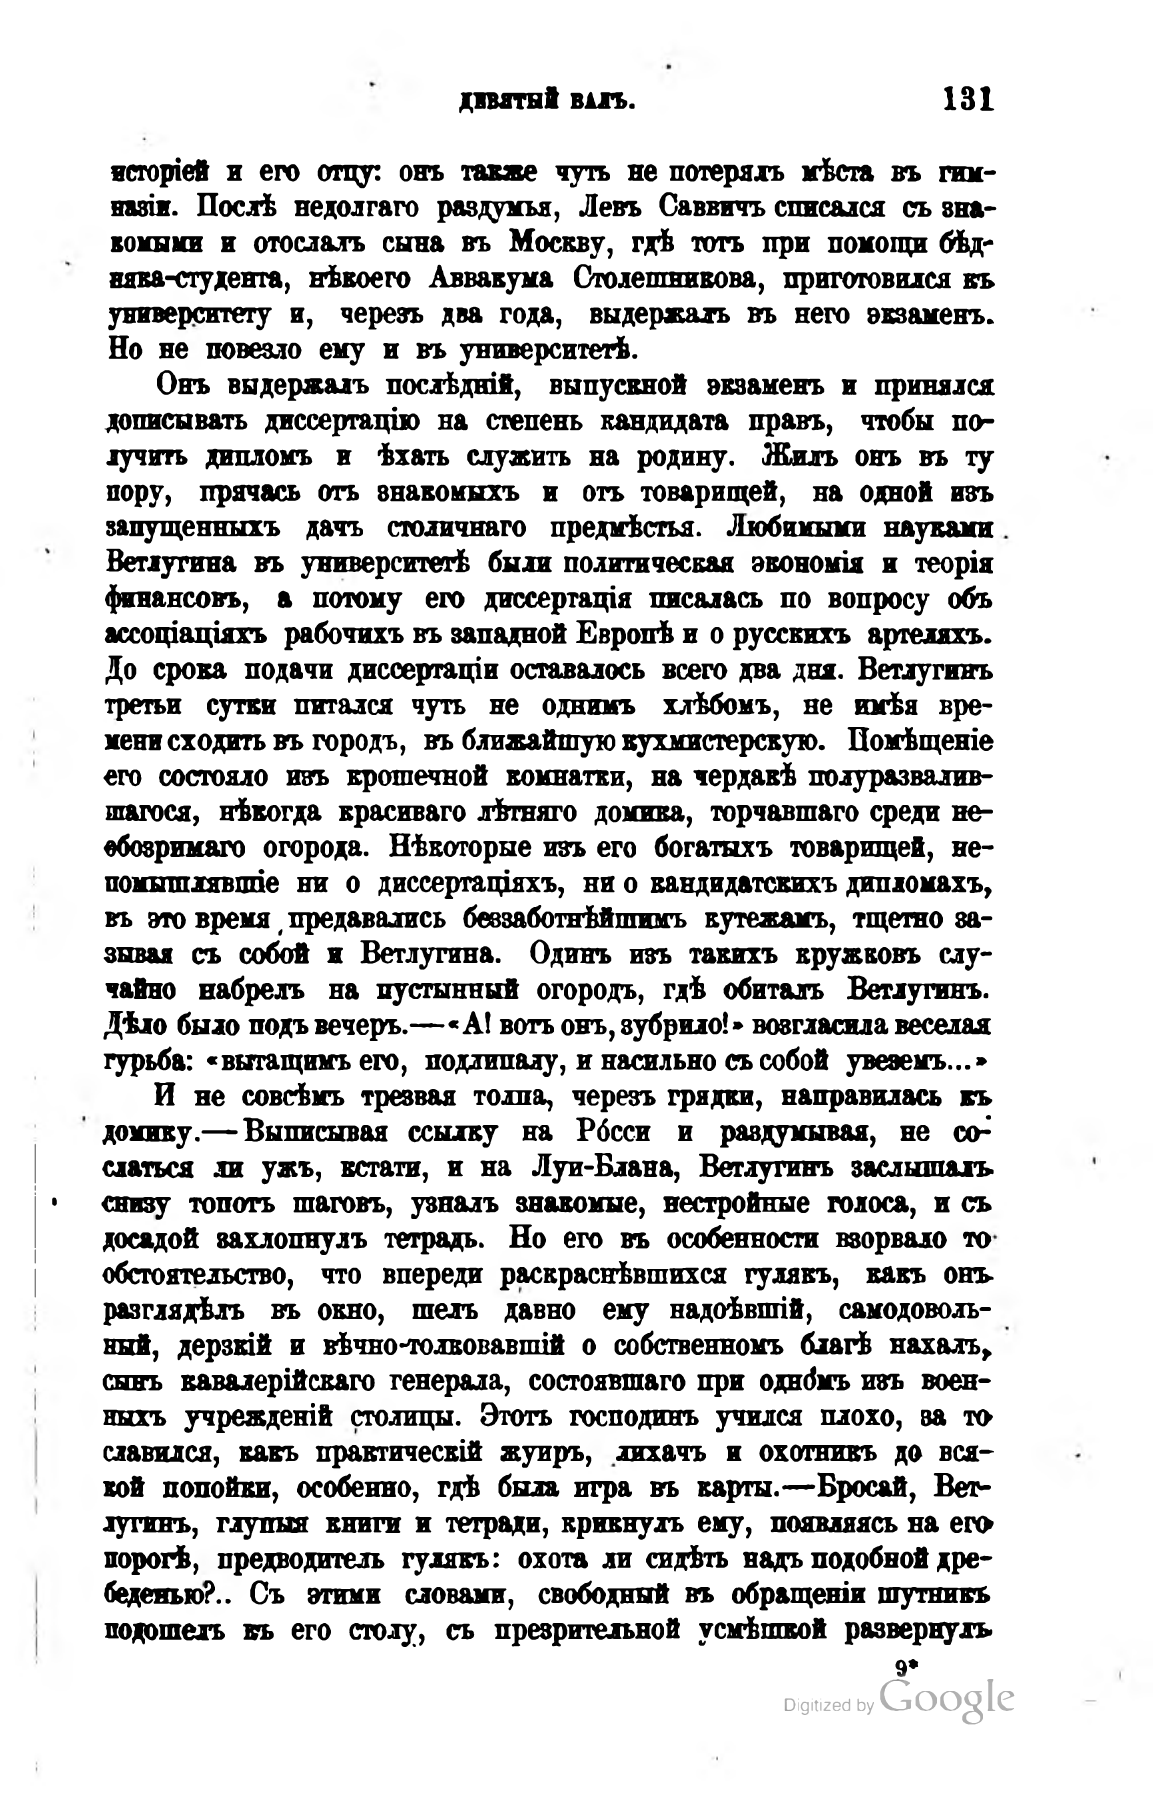ДЕВЯТЫЙ ВАЛЪ.                          131
исторіей и его отцу: онъ также чуть не потерялъ мѣста въ гимназіи. Послѣ недолгаго раздумья, Левъ Саввичъ списался съ знакомыми и отослалъ сына въ Москву, гдѣ тотъ при помощи бѣдняка-студента, нѣкоего Аввакума Столешникова, приготовился къ университету и, черезъ два года, выдержалъ въ него экзаменъ. Но не повезло ему и въ университетѣ.
Онъ выдержалъ послѣдній, выпускной экзаменъ и принялся дописывать диссертацію па степень кандидата правъ, чтобы получить дипломъ и ѣхать служить на родину. Жилъ онъ въ ту пору, прячась отъ знакомыхъ и отъ товарищей, на одной изъ запущенныхъ дачъ столичнаго предмѣстья. Любимыми науками Ветлугина въ университетѣ были политическая экономія и теорія финансовъ, а потому его диссертація писалась по вопросу объ ассоціаціяхъ рабочихъ въ западной Европѣ и о русскихъ артеляхъ. До срока подачи диссертаціи оставалось всего два дня. Ветлугинъ третьи сутки питался чуть не однимъ хлѣбомъ, не имѣя времени сходить въ городъ, въ ближайшую кухмистерскую. Помѣщеніе его состояло изъ крошечной комнатки, на чердакѣ полуразвалившагося, нѣкогда красиваго лѣтняго домика, торчавшаго среди необозримаго огорода. Нѣкоторые изъ его богатыхъ товарищей, непомышлявшіе ни о диссертаціяхъ, ни о кандидатскихъ дипломахъ, въ это время предавались беззаботнѣйшимъ кутежамъ, тщетно зазывая съ собой и Ветлугина. Одинъ изъ такихъ кружковъ случайно набрелъ на пустынный огородъ, гдѣ обиталъ Ветлугинъ. Дѣло было подъ вечеръ. — «А! вотъ онъ, зубрило!» возгласила веселая гурьба: «вытащимъ его, подлипалу, и насильно съ собой увеземъ...»
И не совсѣмъ трезвая толпа, черезъ грядки, направилась къ домику. — Выписывая ссылку на Росси и раздумывая, не сослаться ли ужъ, кстати, и на Луи-Блана, Ветлугинъ заслышалъ снизу топотъ шаговъ, узналъ знакомые, нестройные голоса, и съ досадой захлопнулъ тетрадь. Но его въ особенности взорвало то обстоятельство, что впереди раскраснѣвшихся гулякъ, какъ онъ разглядѣлъ въ окно, шелъ давно ему надоѣвшій, самодовольный, дерзкій и вѣчно-толковавшій о собственномъ благѣ нахалъ, сынъ кавалерійскаго генерала, состоявшаго при одномъ изъ военныхъ учрежденій столицы. Этотъ господинъ учился плохо, за то славился, какъ практическій жуиръ, лихачъ и охотникъ до всякой попойки, особенно, гдѣ была игра въ карты. — Бросай, Ветлугинъ, глупыя книги и тетради, крикнулъ ему, появляясь на его порогѣ, предводитель гулякъ: охота ли сидѣть надъ подобной дребеденью?.. Съ этими словами, свободный въ обращеніи шутникъ подошелъ къ его столу, съ презрительной усмѣшкой развернулъ
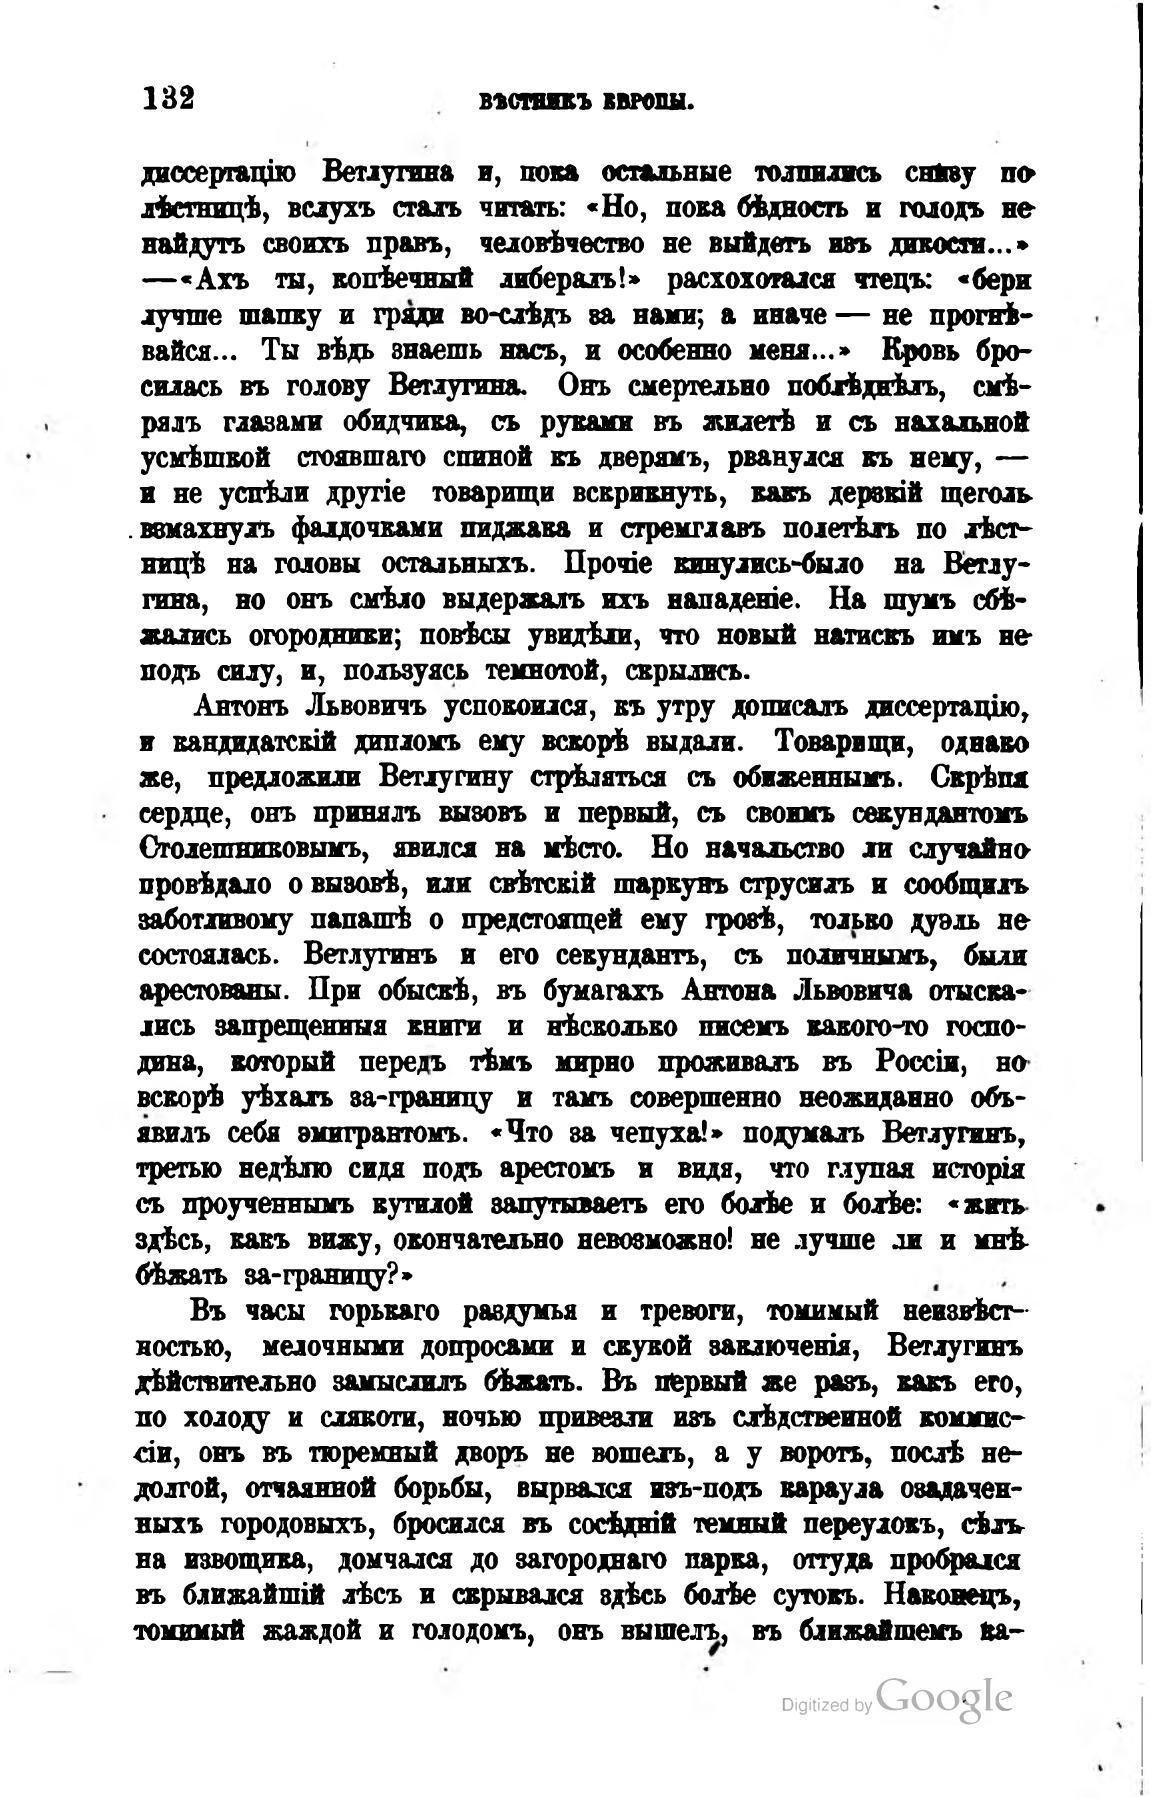132                     ВѢСТНИКЪ ЕВРОПЫ.
диссертацію Ветлугина и, пока остальные толпились снизу по лѣстницѣ, вслухъ сталъ читать: «Но, пока бѣдность и голодъ не найдутъ своихъ правъ, человѣчество не выйдетъ изъ дикости…» — «Ахъ ты, копѣечный либералъ!» расхохотался чтецъ: «бери лучше шапку и гряди во-слѣдъ за нами; а иначе — не прогнѣвайся... Ты вѣдь знаешь насъ, и особенно меня...» Кровь бросилась въ голову Ветлугина. Онъ смертельно поблѣднѣлъ, смѣрилъ глазами обидчика, съ руками въ жилетѣ и съ нахальной усмѣшкой стоявшаго спиной къ дверямъ, рванулся къ нему, — и не успѣли другіе товарищи вскрикнуть, какъ дерзкій щеголъ взмахнулъ фалдочками пиджака и стремглавъ полетѣль по лѣстницѣ на головы остальныхъ. Прочіе кинулись-было на Ветлугина, но онъ смѣло выдержалъ ихъ нападеніе. На шумъ сбѣжались огородники; повѣсы увидѣли, что новый натискъ имъ не подъ силу, и, пользуясь темнотой, скрылись.
Антонъ Львовичъ успокоился, къ утру дописалъ диссертацію, и кандидатскій дипломъ ему вскорѣ выдали. Товарищи, однако же, предложили Ветлугину стрѣляться съ обиженнымъ. Скрѣпя сердце, онъ принялъ вызовъ и первый, съ своимъ секундантомъ Столешниковымъ, явился на мѣсто. Но начальство ли случайно провѣдало о вызовѣ, или свѣтскій шаркунъ струсилъ и сообщилъ заботливому папашѣ о предстоящей ему грозѣ, только дуэль не состоялась. Ветлугинъ и его секундантъ, съ поличнымъ, были арестованы. При обыскѣ, въ бумагахъ Антона Львовича отыскались запрещенныя книги и нѣсколько писемъ какого-то господина, который передъ тѣмъ мирно проживалъ въ Россіи, но вскорѣ уѣхалъ за-границу и тамъ совершенно неожиданно объявилъ себя эмигрантомъ. «Что за чепуха!» подумалъ Ветлугинъ, третью недѣлю сидя подъ арестомъ и видя, что глупая исторія съ проученнымъ кутилой запутываетъ его болѣе и болѣе: «жить здѣсь, какъ вижу, окончательно невозможно! не лучше ли и мнѣ бѣжать за-границу?»
Въ часы горькаго раздумья и тревоги, томимый неизвѣстностью, мелочными допросами и скукой заключенія, Ветлугинъ дѣйствительно замыслилъ бѣжать. Въ первый же разъ, какъ его, по холоду и слякоти, ночью привезли изъ слѣдственной коммиссіи, онъ въ тюремный дворъ не вошелъ, а у воротъ, послѣ недолгой, отчаянной борьбы, вырвался изъ-подъ караула озадаченныхъ городовыхъ, бросился въ сосѣдній темный переулокъ, сѣлъ на извощика, домчался до загороднаго парка, оттуда пробрался въ ближайшій лѣсъ и скрывался здѣсь болѣе сутокъ. Наконецъ, томимый жаждой и голодомъ, онъ вышелъ, въ ближайшемъ ка-
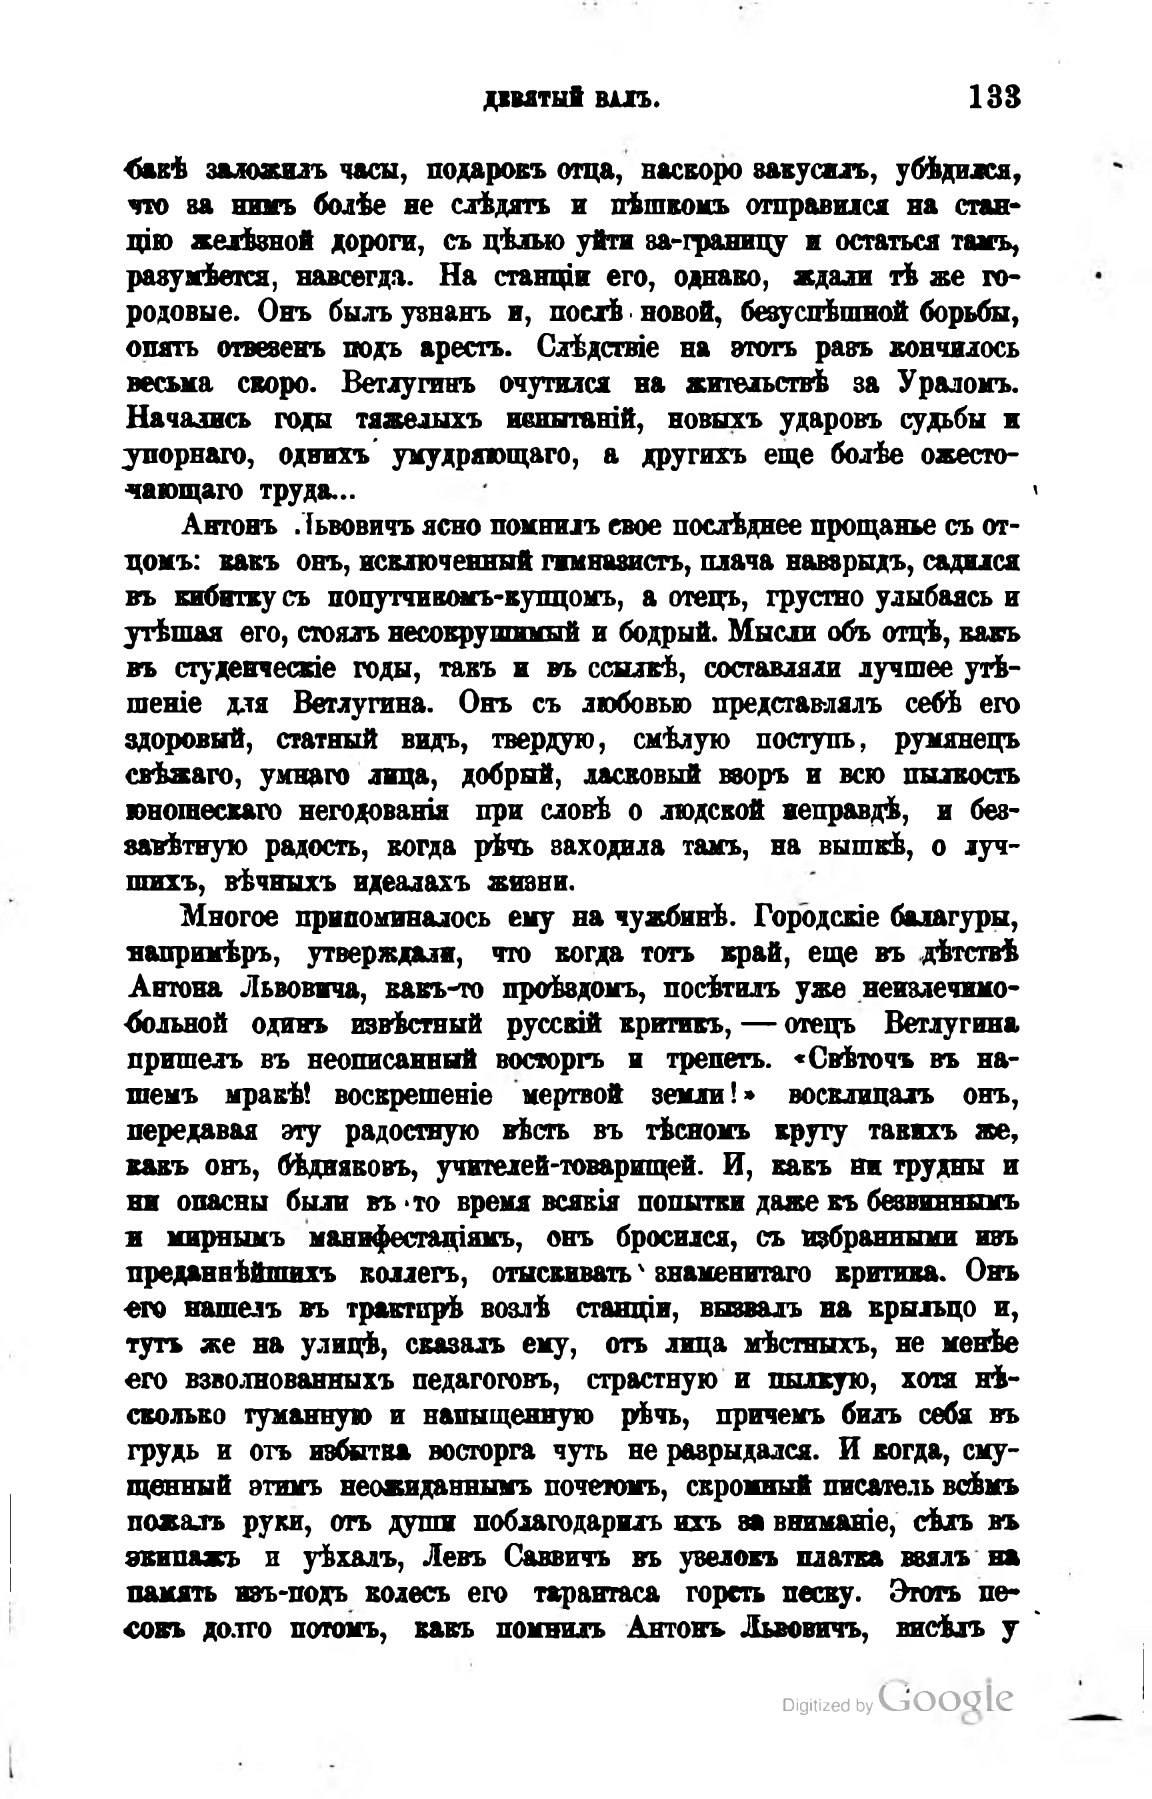ДЕВЯТЫЙ ВАЛЪ.                    133
бакѣ заложилъ часы, подарокъ отца, наскоро закусилъ, убѣдился, что за нимъ болѣе не слѣдятъ и пѣшкомъ отправился на станцію желѣзной дороги, съ цѣлью уйти за-границу и остаться тамъ, разумѣется, навсегда. На станціи его, однако, ждали тѣ же городовые. Онъ былъ узнанъ и, послѣ новой, безуспѣшной борьбы, опять отвезенъ подъ арестъ. Слѣдствіе на этотъ разъ кончилось весьма скоро. Ветлугинъ очутился на жительствѣ за Ураломъ. Начались годы тяжелыхъ испытаній, новыхъ ударовъ судьбы и упорнаго, однихъ умудряющаго, а другихъ еще болѣе ожесточающаго труда...                                                    '
Антонъ Львовичъ ясно помнилъ свое послѣднее прощанье съ отцомъ: какъ онъ, исключенный гимназистъ, плача навзрыдъ, садился въ кибитку съ попутчивомъ-купцомъ, а отецъ, грустно улыбаясь и утѣшая его, стоялъ несокрушимый и бодрый. Мысли объ отцѣ, какъ въ студенческіе годы, такъ и въ ссылкѣ, составляли лучшее утѣшеніе для Ветлугина. Онъ съ любовью представлялъ себѣ его здоровый, статный видъ, твердую, смѣлую поступь, румянецъ свѣжаго, умнаго лица, добрый, ласковый взоръ и всю пылкость юношескаго негодованія при словѣ о людской неправдѣ, и беззавѣтную радость, когда рѣчь заходила тамъ, на вышкѣ, о лучшихъ, вѣчныхъ идеалахъ жизни.
Многое припоминалось ему на чужбинѣ. Городскіе балагуры, напримѣръ, утверждали, что когда тотъ край, еще въ дѣтствѣ Антона Львовича, какъ-то проѣздомъ, посѣтилъ уже неизлечимобольной одинъ извѣстный русскій критикъ, — отецъ Ветлугина пришелъ въ неописанный восторгъ и трепетъ. «Свѣточъ въ нашемъ мракѣ! воскрешеніе мертвой земли!» восклицалъ онъ, передавая эту радостную вѣсть въ тѣсномъ кругу такихъ же, какъ онъ, бѣдняковъ, учителей-товарищей. И, какъ ни трудны и ни опасны были въ то время всякія попытки даже къ безвиннымъ и мирнымъ манифестаціямъ, онъ бросился, съ избранными изъ преданнѣйшихъ коллегъ, отыскивать знаменитаго критика. Онъ его нашелъ въ трактирѣ возлѣ станціи, вызвалъ на крыльцо и, тутъ же на улицѣ, сказалъ ему, отъ лица мѣстныхъ, не менѣе его взволнованныхъ педагоговъ, страстную и пылкую, хотя нѣсколько туманную и напыщенную рѣчь, причемъ билъ себя въ грудь и отъ избытка восторга чуть не разрыдался. И когда, смущенный этимъ неожиданнымъ почетомъ, скромный писатель всѣмъ пожалъ руки, отъ души поблагодарилъ ихъ за вниманіе, сѣлъ въ экипажъ и уѣхалъ, Левъ Саввичъ въ узелокъ платка взялъ на память изъ-подъ колесъ его тарантаса горсть песку. Этотъ песокъ долго потомъ, какъ помнилъ Антонъ Львовичъ, висѣлъ у